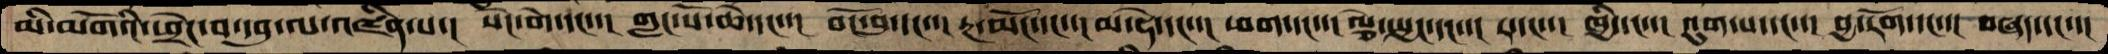མི་མགོའི་ཕྲེང་བ་དབུ་ལ་འཛིན་པ་།  སེང་གེ་དང་་།  གླང་པོ་ཆེ་དང་་།  བོང་བུ་དང་་།  རྔ་མོང་དང་་།  མ་ཧེ་དང་།  ཕག་དང་་།  ལྕེ་སྤྱང་དང་་།  ར་དང་་།  ཁྱི་དང་་།  འུག་པ་དང་་།  བྱ་རོག་དང་་།  བཞད་དང་་།
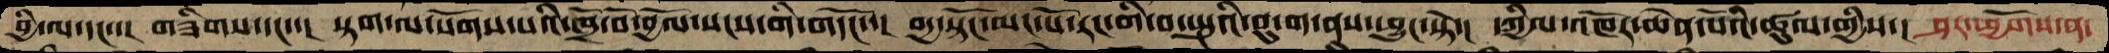བྱི་ལ་དང་་།  གཟིགས་དང་་།  སྟག་ལ་སོགས་པའི་ཁྲོ་བོ་བྱོལ་སངས་གི་གདོང་་། བདྱ་སྟོང་མང་པོ་རང་གི་བ་སྤུའི་བུ་ག་ནས་ཕྱུང་སྟེ་།  དཀྱིལ་འཁོར་ཆེན་པོའི་ཚུལ་གྱིས་།  ཤར་ཕྱོགས་ན་
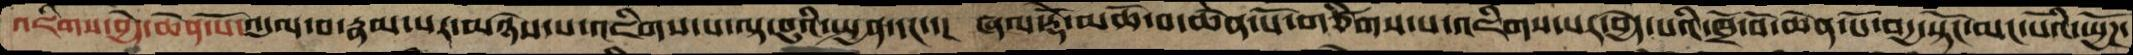འཇིགས་བྱེད་ཆེན་པོ་འདུལ་བ་རྣམ་པར་མཉེས་པ་འཇིགས་པ་ལྟ་བུའི་སྤྱན་དང་་།  ཞལ་རྡོེ་མཆེ་བ་ཆེན་པོ་གཙིགས་པ་འཇིགས་པར་བྱེད་པའི་ཁྲོ་བོ་ཆེན་པོ་བདྱ་སྟོང་མང་པོའི་ཡྱོཌ་
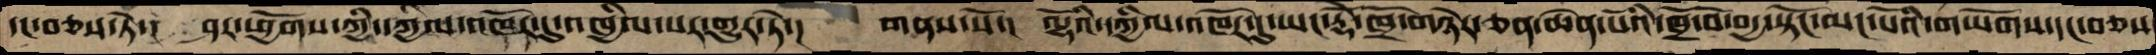དང་བཅས་ཏེ་།  ཤར་ཕྱོགས་ཀྱི་དཀྱིལ་འཁོར་དུ་འཁྱིལ་པར་གྱུར་ཏེ་།  གནས་སོ་།  ལྷོའི་དཀྱིལ་འཁོར་དུ་ཡང་རྡོེ་ཁྲོ་གཉེར་ཅན་ཆེན་པོའི་ཁྲོ་བོ་བདྱ་སྟོང་མང་པོའི་གཡོགས་དང་བཅས་
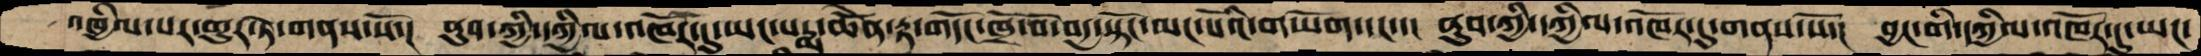འཁྱིལ་པར་གྱུར་ཏེ་གནས་སོ་།  ནུབ་ཀྱི་དཀྱིལ་འཁོར་དུ་ཡང་པདྨ་ཆེནོ་རྟ་གདོང་ཁྲོ་བོ་བདྱ་སྟོང་མང་པོའི་གཡོག་དང་་།  ནུབ་ཀྱི་དཀྱིལ་འཁོར་དུ་གནས་སོ་།  བྱང་གི་དཀྱིལ་འཁོར་དུ་ཡང་
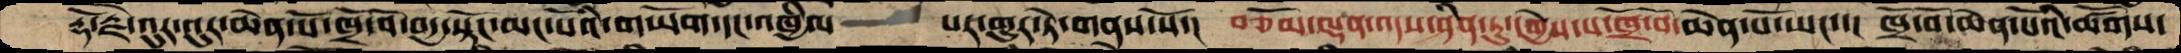རྡོ་རྗེ་འུར་འུར་ཆེན་པོ་ཁྲོ་བོ་བདྱ་སྟོང་མང་པོའི་གཡོག་དང་འཁྱིལ་   པར་གྱུར་ཏེ་གནས་སོ་།  བཅོམ་ལྡན་འདས་ཤིན་ཏུ་དགྱེས་པ་ཁྲོ་བོ་ཆེན་པོ་ཡང་་།  ཁྲོ་བོ་ཆེན་པོའི་ཚོགས་
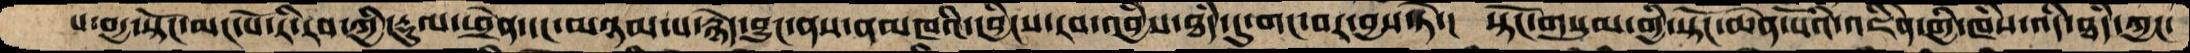པ་བདྱ་སྟོང་མང་པོ་རི་རབ་ཀྱི་རྡུལ་ཕྲེན་དང་མཉམ་པ་རྙེད་བྱུང་ནས་ནམཁའི་དབྱིངས་རབ་འབྱཾས་ཐཾད་དུ་གང་བར་བྱས་ཏེ་།  སྟོང་གསུམ་གྱི་སྟོང་ཆེན་པོའི་འཇིེན་གྱི་ཁཾས་འདི་ཐཾད་ཀྱང་
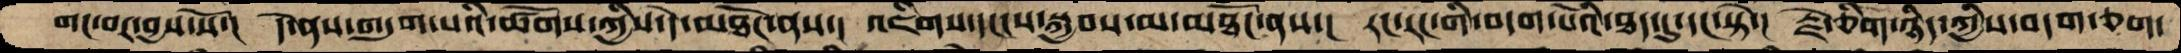གང་བར་བྱས་སོ་།  དེ་ནས་གདུག་པའི་ཚོགས་ཀྱིས་དེ་མཐོང་ནས་།  འཇིགས་དངངས་སྐྱབས་མ་མཐོང་ནས་།  རང་རང་གི་བདག་པོའི་ཐད་དུ་དང་སྟེ་།  རྗེ་ཅིག་ཉིད་ཀྱིས་བདག་ཅག་
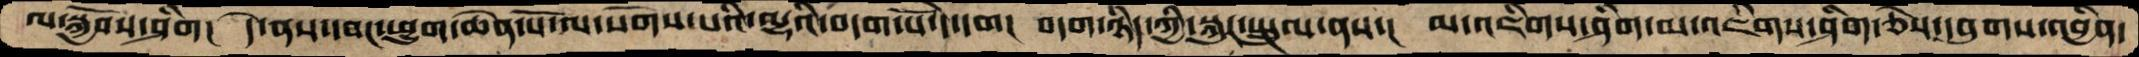ལ་སྐྱོབས་ཤིག།  དེ་ནས་དབང་ཕྱུག་ཆེན་པོ་ལ་སོགས་པའི་ལྷའི་བདག་པོ་དེ་དག།  བདག་ཉིད་ཀྱི་སྐུར་སྤྲུལ་ནས་།  མ་འཇིགས་ཤིག་མ་འཇིགས་ཤིག་ཅེས་དབུགས་འབྱིན་
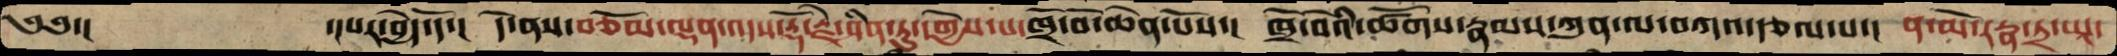༄༅་།          ་།པར་བྱེད་དོ་།  དེ་ནས་བཅོམ་ལྡན་འདས་རྡོ་རྗེ་ཤིན་ཏུ་དགྱེས་པ་ཁྲོ་བོ་ཆེན་པོས་།  ཁྲོ་བོའི་ཚོགས་རྣམས་ཀུན་ལ་བཀའ་རྩལ་པ་།  ན་མོ་རརྣ་ཏྲ་ཡཱ་
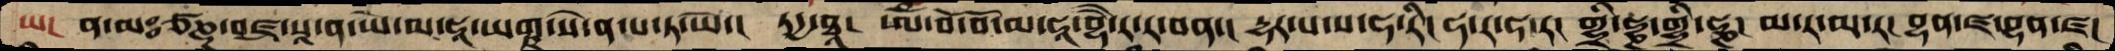ཡ།  ན་མཿཙཎྜ་བཛྲ་སཱ་ན་ཡེ་མ་ཧཱ་ཡགྵ་སེ་ན་པ་ཏ་ཡེ་།  ཏདྱ་ཐཱ།  ཨོཾ་བོ་བོ་མ་ཧཱ་བྷཻ་ར་ར་བན་།  དྷར་པ་ས་ཧ་རི།  ཧ་ར་ཧ་ར། གྷྲི་ཧྞ་གྷྲི་ཧྞ། མ་ར་མ་ར།  བྷན་ཛ་བྷན་ཛ།
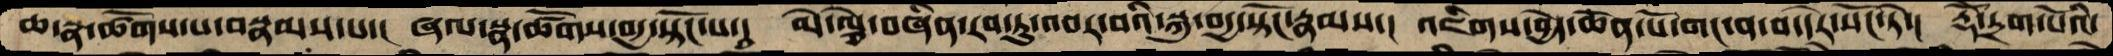ཆ་སྣ་ཚོགས་པ་བསྣམས་པ་།  ཞལ་སྣ་ཚོགས་བདྱ་སྟོང་པ་།  མེ་ལྕེ་བཞིན་རབ་ཏུ་འབར་བའི་སྐུ་བདྱ་སྟོང་རྣམས་།  འཇིགས་བྱེད་ཆེན་པོ་གང་ན་བ་དེར་སོང་ཏེ་།  རྡོེ་དྲག་པོའི་
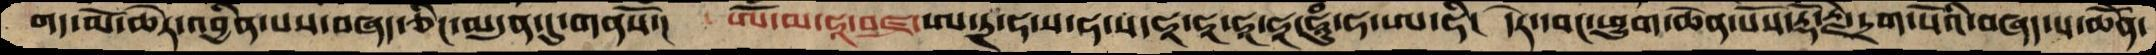གད་མོ་ཆེར་འབྱིན་པས་བཞད་ཅིང་མདུན་དུ་གནསོ་།  ཨོཾ་མ་ཧཱ་བཛྲ་ཨ་ཏྲ་ཧ་ས་ཧ་ས་ཧཱ་ཧཱ་ཧཱ་ཧཱ་ཧཱུཾ་ཧ་ཨ་ཧི།  དེར་དབང་ཕྱུག་ཆེན་པོས་རྡོ་རྗེ་དྲག་པོའི་བཞད་པ་ཆེནོ་
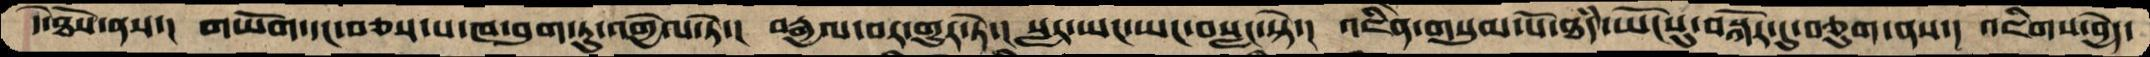དེ་ཐོས་ནས་།  གཡོག་དང་བཅས་པ་ཁ་བུག་ཏུ་འགྱེལ་ཏེ་།  བརྒྱལ་བར་གྱུར་ཏེ་།  སླར་ཡང་ཡང་བསླང་སྟེ་།  འཇིནེ་གསུམ་པོ་ཐཾད་ཡོངསུ་བསྐོར་དུ་བཅུག་ནས་།  འཇིགས་བྱེད་
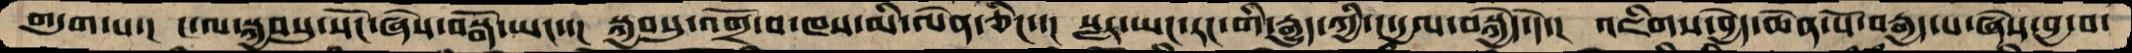གདུག་པ་།  ང་ལ་སྐྱབསུ་སོང་ཞེས་བསྒོ་ཡང་་།  སྐྱབསུ་འགྲོ་བ་ཁས་མི་ལེན་ཅིང་།  སླར་ཡང་རང་གི་རྒྱུད་ཀྱི་ང་དྱལ་བསྐྱེད་དེ་།  འཇིགས་བྱེད་ཆེན་པོ་བརྒྱད་པ་ཞེས་བྱ་བ་
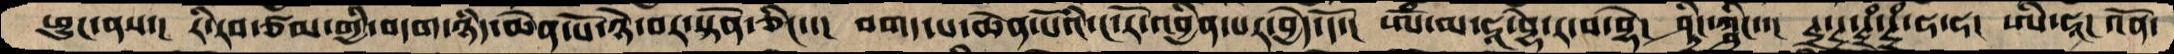ཕྱུང་ནས་།  རི་རབ་ཙམ་གྱི་བདག་ཉིད་ཆེན་པོ་ཉེ་བར་སྟོན་ཅིང་་།  བགད་པ་ཆེན་པོའི་ང་རོ་འབྱིན་པར་བྱེད་དོ་།  ཨོཾ་མ་ཧཱ་བྷེ་ར་བ་བྷེ།  ཤྚྲིངཀྴིང་་། ཊྲ་ཊྲ་ཊྲཾཊྲཾ་ཧ་ཧ་  ཨི་ཧཱ། འོན་
